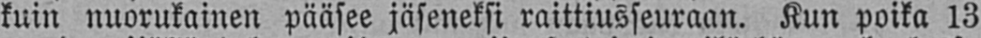kuin nuorukainen pääsee jäseneksi raittiusseuraan. Kun poika 13
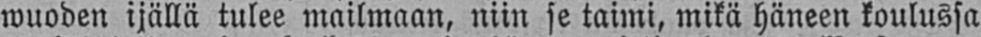wuoden ijällä tulee mailmaan, niin se taimi, mikä häneen koulussa
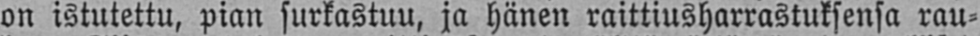on istutettu, pian surkastuu, ja hänen raittiusharrastuksensa rau-
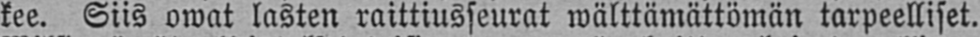kee. Siis owat lasten raittiusseurat wälttämättömän tarpeelliset.
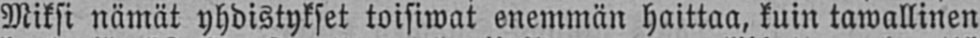Miksi nämät yhdistykset toisiwat enemmän haittaa, kuin tawallinen
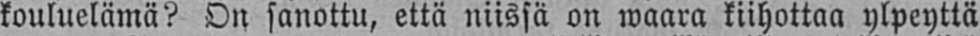kouluelämä? On sanottu, että niissä on waara kiihottaa ylpeyttä
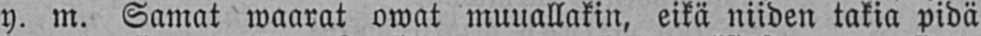y. m. Samat wäärät owat muuallakin, eikä niiden takia pidä
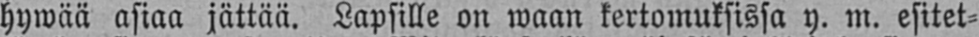hywää asiaa jättää. Lapsille on waan kertomuksissa y. m. esitet-
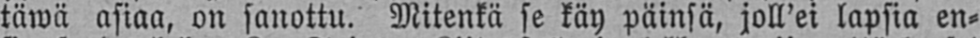täwä asiaa, on sanottu. Mitenkä se käy päinsä, joll'ei lapsia en-
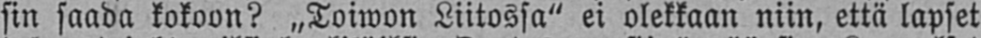sin saada kokoon? „Toiwon Liitossa" ei olekkaan niin, että lapset
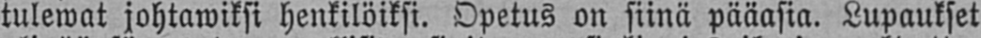tulewat johtawiksi henkilöiksi. Opetus on siinä pääasia. Lupaukset
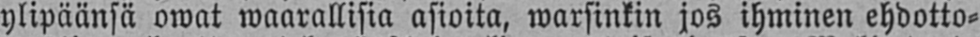ylipäänsä owat waarallisiä asioita, warsinkin jos ihminen ehdotto-
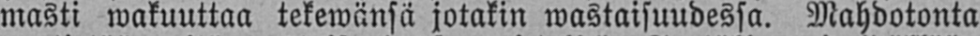masti wakuuttaa tekewänsä jotakin wastaisuudessa. Mahdotonta
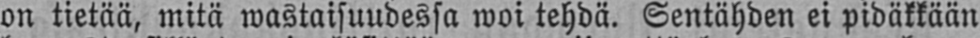on tietää, mitä wastaisuudessa woi tehdä. Sentähden ei pidäkkään
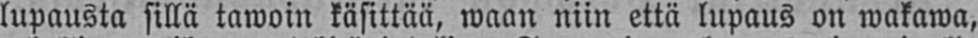lupausta sillä tawoin käsittää, waan niin että lupaus on wakawa,
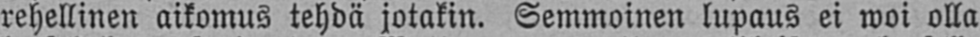rehellinen aikomus tehdä jotakin. Semmoinen lupaus ei woi olla
